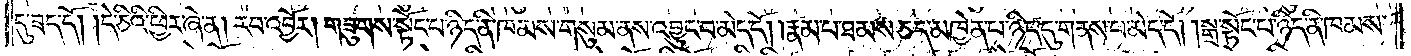དུ་ཟད་དོ། །དེ་ཅིའི་ཕྱིར་ཞེ་ན། རབ་འབྱོར། གཟུགས་སྟོང་པ་ཉིད་ནི་ཁམས་གསུམ་ནས་འབྱུང་བ་མེད་དོ། །རྣམ་པ་ཐམས་ཅད་མཁྱེན་པ་ཉིད་དུ་གནས་པ་མེད་དོ། །སྒྲ་སྟོང་པ་ཉིད་ནི་ཁམས་
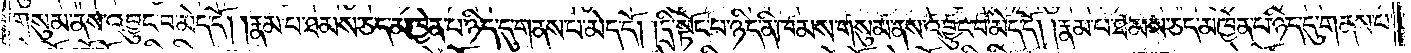གསུམ་ནས་འབྱུང་བ་མེད་དོ། །རྣམ་པ་ཐམས་ཅད་མཁྱེན་པ་ཉིད་དུ་གནས་པ་མེད་དོ། །དྲི་སྟོང་པ་ཉིད་ནི་ཁམས་གསུམ་ནས་འབྱུང་བ་མེད་དོ། །རྣམ་པ་ཐམས་ཅད་མཁྱེན་པ་ཉིད་དུ་གནས་པ་
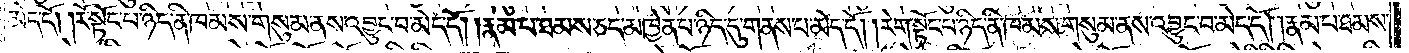མེད་དོ། །རོ་སྟོང་པ་ཉིད་ནི་ཁམས་གསུམ་ནས་འབྱུང་བ་མེད་དོ། །རྣམ་པ་ཐམས་ཅད་མཁྱེན་པ་ཉིད་དུ་གནས་པ་མེད་དོ། །རེག་སྟོང་པ་ཉིད་ནི་ཁམས་གསུམ་ནས་འབྱུང་བ་མེད་དོ། །རྣམ་པ་ཐམས་
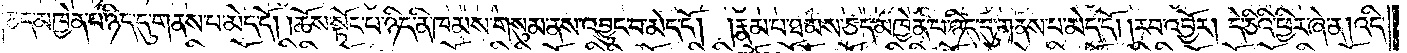ཅད་མཁྱེན་པ་ཉིད་དུ་གནས་པ་མེད་དོ། །ཆོས་སྟོང་པ་ཉིད་ནི་ཁམས་གསུམ་ནས་འབྱུང་བ་མེད་དོ། །རྣམ་པ་ཐམས་ཅད་མཁྱེན་པ་ཉིད་དུ་གནས་པ་མེད་དོ། །རབ་འབྱོར། དེ་ཅིའི་ཕྱིར་ཞེ་ན། འདི་
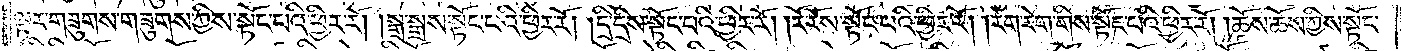ལྟར་གཟུགས་གཟུགས་ཀྱིས་སྟོང་པའི་ཕྱིར་རོ། །སྒྲ་སྒྲས་སྟོང་པའི་ཕྱིར་རོ། །དྲི་དྲིས་སྟོང་པའི་ཕྱིར་རོ། །རོ་རོས་སྟོང་པའི་ཕྱིར་རོ། །རེག་རེག་གིས་སྟོང་པའི་ཕྱིར་རོ། །ཆོས་ཆོས་ཀྱིས་སྟོང་
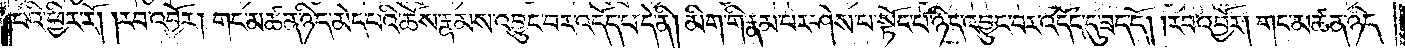པའི་ཕྱིར་རོ། །རབ་འབྱོར། གང་མཚན་ཉིད་མེད་པའི་ཆོས་རྣམས་འབྱུང་བར་འདོད་པ་དེ་ནི། མིག་གི་རྣམ་པར་ཤེས་པ་སྟོང་པ་ཉིད་འབྱུང་བར་འདོད་དུ་ཟད་དོ། །རབ་འབྱོར། གང་མཚན་ཉིད་
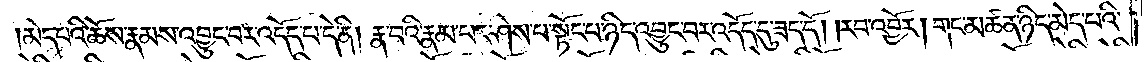མེད་པའི་ཆོས་རྣམས་འབྱུང་བར་འདོད་པ་དེ་ནི། རྣ་བའི་རྣམ་པར་ཤེས་པ་སྟོང་པ་ཉིད་འབྱུང་བར་འདོད་དུ་ཟད་དོ། །རབ་འབྱོར། གང་མཚན་ཉིད་མེད་པའི་
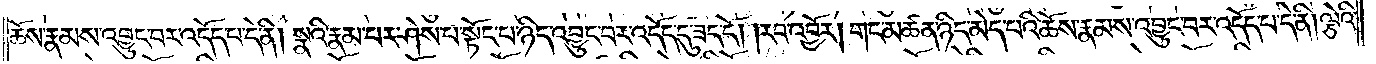ཆོས་རྣམས་འབྱུང་བར་འདོད་པ་དེ་ནི། སྣའི་རྣམ་པར་ཤེས་པ་སྟོང་པ་ཉིད་འབྱུང་བར་འདོད་དུ་ཟད་དོ། །རབ་འབྱོར། གང་མཚན་ཉིད་མེད་པའི་ཆོས་རྣམས་འབྱུང་བར་འདོད་པ་དེ་ནི། ལྕེའི་
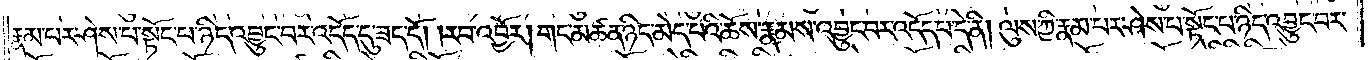རྣམ་པར་ཤེས་པ་སྟོང་པ་ཉིད་འབྱུང་བར་འདོད་དུ་ཟད་དོ། །རབ་འབྱོར། གང་མཚན་ཉིད་མེད་པའི་ཆོས་རྣམས་འབྱུང་བར་འདོད་པ་དེ་ནི། ལུས་ཀྱི་རྣམ་པར་ཤེས་པ་སྟོང་པ་ཉིད་འབྱུང་བར་
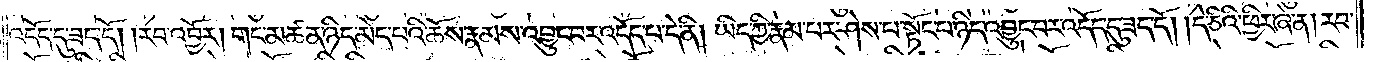འདོད་དུ་ཟད་དོ། །རབ་འབྱོར། གང་མཚན་ཉིད་མེད་པའི་ཆོས་རྣམས་འབྱུང་བར་འདོད་པ་དེ་ནི། །ཡིད་ཀྱི་རྣམ་པར་ཤེས་པ་སྟོང་པ་ཉིད་འབྱུང་བར་འདོད་དུ་ཟད་དོ། །དེ་ཅིའི་ཕྱིར་ཞེ་ན། རབ་
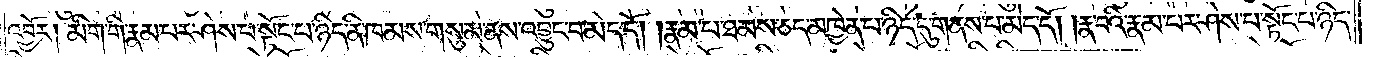འབྱོར། མིག་གི་རྣམ་པར་ཤེས་པ་སྟོང་པ་ཉིད་ནི་ཁམས་གསུམ་ནས་འབྱུང་བ་མེད་དོ། །རྣམ་པ་ཐམས་ཅད་མཁྱེན་པ་ཉིད་དུ་གནས་པ་མེད་དོ། །རྣ་བའི་རྣམ་པར་ཤེས་པ་སྟོང་པ་ཉིད་
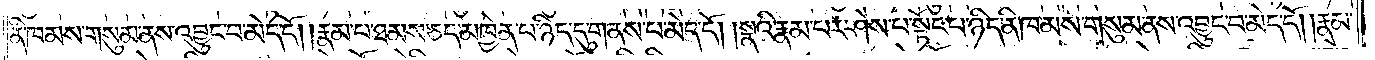ནི་ཁམས་གསུམ་ནས་འབྱུང་པ་མེད་དོ། །རྣམ་པ་ཐམས་ཅད་མཁྱེན་པ་ཉིད་དུ་གནས་པ་མེད་དོ། །སྣའི་རྣམ་པར་ཤེས་པ་སྟོང་པ་ཉིད་ནི་ཁམས་གསུམ་ནས་འབྱུང་བ་མེད་དོ། །རྣམ་
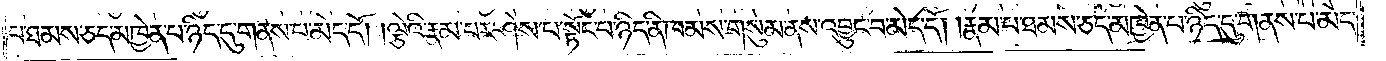པ་ཐམས་ཅད་མཁྱེན་པ་ཉིད་དུ་གནས་པ་མེད་དོ། །ལྕེའི་རྣམ་པར་ཤེས་པ་སྟོང་པ་ཉིད་ནི་ཁམས་གསུམ་ནས་འབྱུང་བ་མེད་དོ། །རྣམ་པ་ཐམས་ཅད་མཁྱེན་པ་ཉིད་དུ་གནས་པ་མེད་
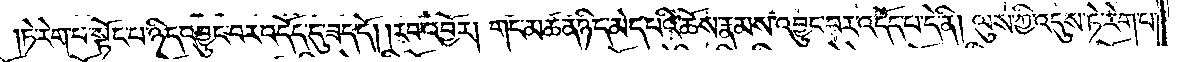ཏེ་རེག་པ་སྟོང་པ་ཉིད་འབྱུང་བར་འདོད་དུ་ཟད་དོ། །རབ་འབྱོར། གང་མཚན་ཉིད་མེད་པའི་ཆོས་རྣམས་འབྱུང་བར་འདོད་པ་དེ་ནི། ལུས་ཀྱི་འདུས་ཏེ་རེག་པ་
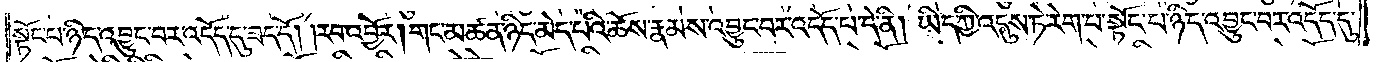སྟོང་པ་ཉིད་འབྱུང་བར་འདོད་དུ་ཟད་དོ། །རབ་འབྱོར། གང་མཚན་ཉིད་མེད་པའི་ཆོས་རྣམས་འབྱུང་བར་འདོད་པ་དེ་ནི། ཡིད་ཀྱི་འདུས་ཏེ་རེག་པ་སྟོང་པ་ཉིད་འབྱུང་བར་འདོད་དུ་
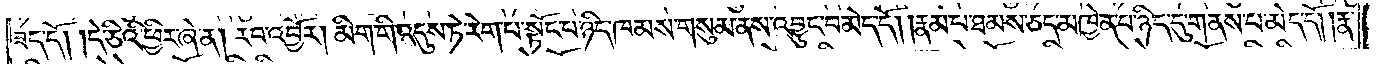ཟད་དོ། དེ་ཅིའི་ཕྱིར་ཞེ་ན། རབ་འབྱོར། མིག་གི་འདུས་ཏེ་རེག་པ་སྟོང་པ་ཉིད་ཁམས་གསུམ་ནས་འབྱུང་བ་མེད་དོ། །རྣམ་པ་ཐམས་ཅད་མཁྱེན་པ་ཉིད་དུ་གནས་པ་མེད་དོ། །རྣ་
